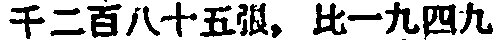千二百八十五張，比一九四九
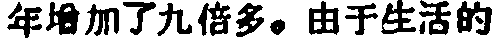年增加了九倍多。由于生活的
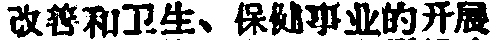改善和卫生、保健事业的开展
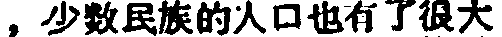，少数民族的人口也有了很大
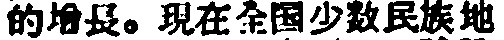的增長。現在全国少数民族地
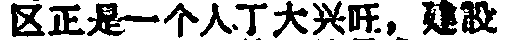区正是一个人丁大兴旺，建設
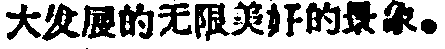大发展的无限美好的景象。
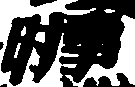时事
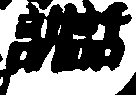講話
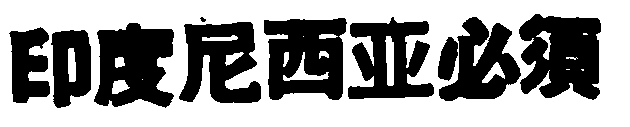印度尼西亚必須
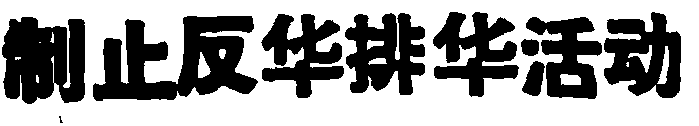制止反华排华活动
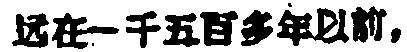远在一千五百多年以前，
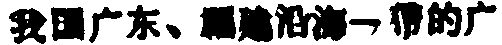我国广东、福建沿海一帶的广
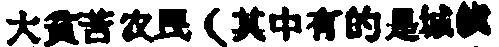大貧苦牧民（其中有的是城鎮
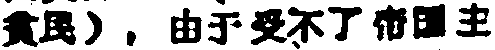貧民），由于受不了帝国主
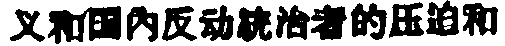义和国內反动統治省的压迫和
